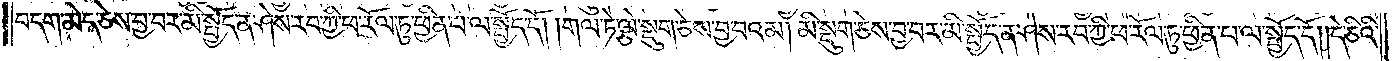བདག་མེད་ཅེས་བྱ་བར་མི་སྤྱོད་ན་ཤེས་རབ་ཀྱི་ཕ་རོལ་ཏུ་ཕྱིན་པ་ལ་སྤྱོད་དོ། །གལ་ཏེ་ལྕེ་སྡུག་ཅེས་བྱ་བའམ། མི་སྡུག་ཅེས་བྱ་བར་མི་སྤྱོད་ན་ཤེས་རབ་ཀྱི་ཕ་རོལ་ཏུ་ཕྱིན་པ་ལ་སྤྱོད་དོ། །དེ་ཅིའི་
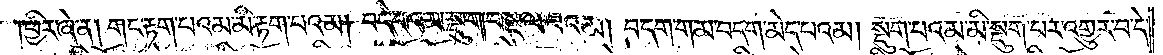ཕྱིར་ཞེ་ན། གང་རྟག་པའམ་མི་རྟག་པའམ། བདེ་བའམ་སྡུག་བསྔལ་བའམ། བདག་གམ་བདག་མེད་པའམ། སྡུག་པའམ་མི་སྡུག་པར་འགྱུར་བ་དེ་
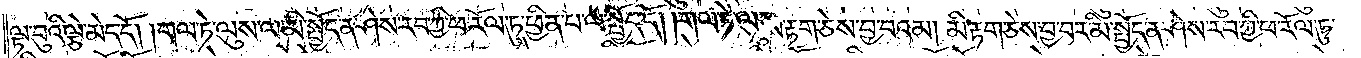ལྟ་བུའི་ལྕེ་མེད་དོ། །གལ་ཏེ་ལུས་ལ་མི་སྤྱོད་ན་ཤེས་རབ་ཀྱི་ཕ་རོལ་ཏུ་ཕྱིན་པ་ལ་སྤྱོད་དོ། །གལ་ཏེ་ལུས་རྟག་ཅེས་བྱ་བའམ། མི་རྟག་ཅེས་བྱ་བར་མི་སྤྱོད་ན་ཤེས་རབ་ཀྱི་ཕ་རོལ་ཏུ་
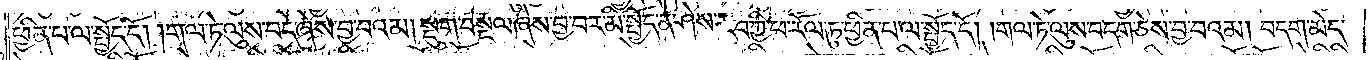ཕྱིན་པ་ལ་སྤྱོད་དོ། །གལ་ཏེ་ལུས་བདེ་ཞེས་བྱ་བའམ། སྡུག་བསྔལ་ཞེས་བྱ་བར་མི་སྤྱོད་ན་ཤེས་རབ་ཀྱི་ཕ་རོལ་ཏུ་ཕྱིན་པ་ལ་སྤྱོད་དོ། །གལ་ཏེ་ལུས་བདག་ཅེས་བྱ་བའམ། བདག་མེད་
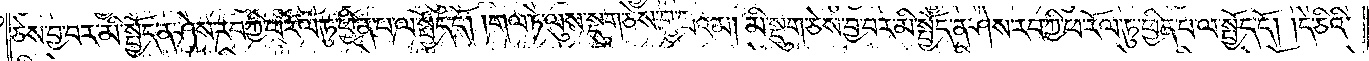ཅེས་བྱ་བར་མི་སྤྱོད་ན་ཤེས་རབ་ཀྱི་ཕ་རོལ་ཏུ་ཕྱིན་པ་ལ་སྤྱོད་དོ། །གལ་ཏེ་ལུས་སྡུག་ཅེས་བྱ་བའམ། མི་སྡུག་ཅེས་བྱ་བར་མི་སྤྱོད་ན་ཤེས་རབ་ཀྱི་ཕ་རོལ་ཏུ་ཕྱིན་པ་ལ་སྤྱོད་དོ། །དེ་ཅིའི་
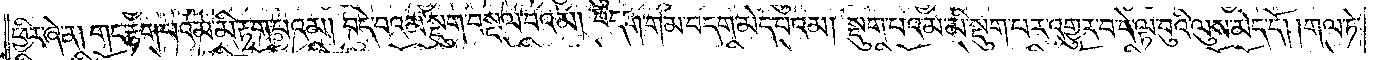ཕྱིར་ཞེ་ན། གང་རྟག་པའམ་མི་རྟག་པའམ། བདེ་བའམ་སྡུག་བསྔལ་བའམ། བདག་གམ་བདག་མེད་པའམ། སྡུག་པའམ་མི་སྡུག་པར་འགྱུར་བ་དེ་ལྟ་བུའི་ལུས་མེད་དོ། །གལ་ཏེ་
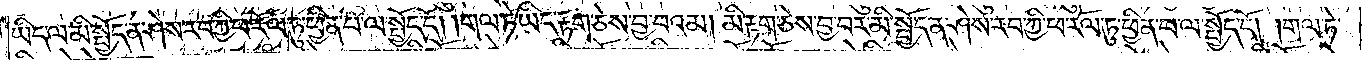ཡིད་ལ་མི་སྤྱོད་ན་ཤེས་རབ་ཀྱི་ཕ་རོལ་ཏུ་ཕྱིན་པ་ལ་སྤྱོད་དོ། །གལ་ཏེ་ཡིད་རྟག་ཅེས་བྱ་བའམ། མི་རྟག་ཅེས་བྱ་བར་མི་སྤྱོད་ན་ཤེས་རབ་ཀྱི་ཕ་རོལ་ཏུ་ཕྱིན་པ་ལ་སྤྱོད་དོ། །གལ་ཏེ་
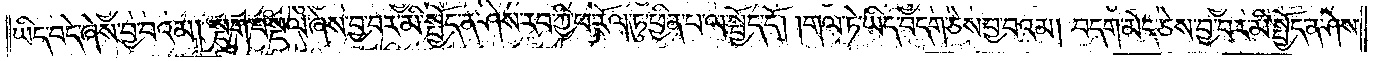ཡིད་བདེ་ཞེས་བྱ་བའམ། སྡུག་བསྔལ་ཞེས་བྱ་བར་མི་སྤྱོད་ན་ཤེས་རབ་ཀྱི་ཕ་རོལ་ཏུ་ཕྱིན་པ་ལ་སྤྱོད་དོ། །གལ་ཏེ་ཡིད་བདག་ཅེས་བྱ་བའམ། བདག་མེད་ཅེས་བྱ་བར་མི་སྤྱོད་ན་ཤེས་
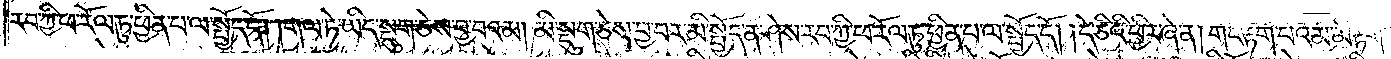རབ་ཀྱི་ཕ་རོལ་ཏུ་ཕྱིན་པ་ལ་སྤྱོད་དོ། །གལ་ཏེ་ཡིད་སྡུག་ཅེས་བྱ་བའམ། མི་སྡུག་ཅེས་བྱ་བར་མི་སྤྱོད་ན་ཤེས་རབ་ཀྱི་ཕ་རོལ་ཏུ་ཕྱིན་པ་ལ་སྤྱོད་དོ། །དེ་ཅིའི་ཕྱིར་ཞེ་ན། གང་རྟག་པའམ་མི་རྟག་
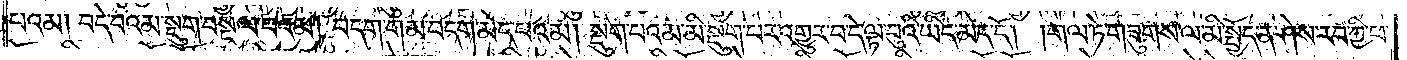པའམ། བདེ་བའམ་སྡུག་བསྔལ་བའམ། བདག་གམ་བདག་མེད་པའམ། སྡུག་པའམ་མི་སྡུག་པར་འགྱུར་བ་དེ་ལྟ་བུའི་ཡིད་མེད་དོ། །གལ་ཏེ་གཟུགས་ལ་མི་སྤྱོད་ན་ཤེས་རབ་ཀྱི་ཕ་
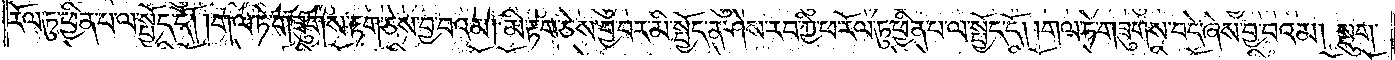རོལ་ཏུ་ཕྱིན་པ་ལ་སྤྱོད་དོ། །གལ་ཏེ་གཟུགས་རྟག་ཅེས་བྱ་བའམ། མི་རྟག་ཅེས་བྱ་བར་མི་སྤྱོད་ན་ཤེས་རབ་ཀྱི་ཕ་རོལ་ཏུ་ཕྱིན་པ་ལ་སྤྱོད་དོ། །གལ་ཏེ་གཟུགས་བདེ་ཞེས་བྱ་བའམ། སྡུག་
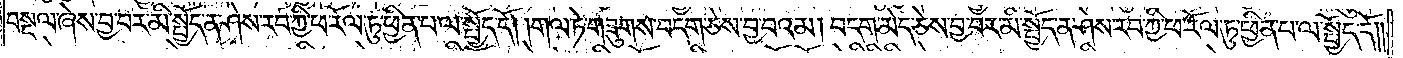བསྔལ་ཞེས་བྱ་བར་མི་སྤྱོད་ན་ཤེས་རབ་ཀྱི་ཕ་རོལ་ཏུ་ཕྱིན་པ་ལ་སྤྱོད་དོ། །གལ་ཏེ་གཟུགས་བདག་ཅེས་བྱ་བའམ། བདག་མེད་ཅེས་བྱ་བར་མི་སྤྱོད་ན་ཤེས་རབ་ཀྱི་ཕ་རོལ་ཏུ་ཕྱིན་པ་ལ་སྤྱོད་དོ། །
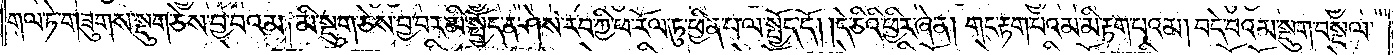གལ་ཏེ་གཟུགས་སྡུག་ཅེས་བྱ་བའམ། མི་སྡུག་ཅེས་བྱ་བར་མི་སྤྱོད་ན་ཤེས་རབ་ཀྱི་ཕ་རོལ་ཏུ་ཕྱིན་པ་ལ་སྤྱོད་དོ། །དེ་ཅིའི་ཕྱིར་ཞེ་ན། གང་རྟག་པའམ་མི་རྟག་པའམ། བདེ་བའམ་སྡུག་བསྔལ་
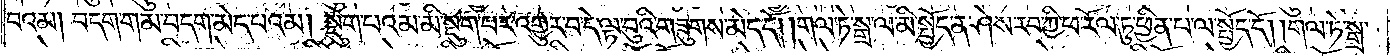བའམ། བདག་གམ་བདག་མེད་པའམ། སྡུག་པའམ་མི་སྡུག་པར་འགྱུར་བ་དེ་ལྟ་བུའི་གཟུགས་མེད་དོ། །གལ་ཏེ་སྒྲ་ལ་མི་སྤྱོད་ན་ཤེས་རབ་ཀྱི་ཕ་རོལ་ཏུ་ཕྱིན་པ་ལ་སྤྱོད་དོ། །གལ་ཏེ་སྒྲ་
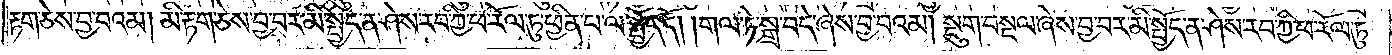རྟག་ཅེས་བྱ་བའམ། མི་རྟག་ཅེས་བྱ་བར་མི་སྤྱོད་ན་ཤེས་རབ་ཀྱི་ཕ་རོལ་ཏུ་ཕྱིན་པ་ལ་སྤྱོད་དོ། །གལ་ཏེ་སྒྲ་བདེ་ཞེས་བྱ་བའམ། སྡུག་བསྔལ་ཞེས་བྱ་བར་མི་སྤྱོད་ན་ཤེས་རབ་ཀྱི་ཕ་རོལ་ཏུ་
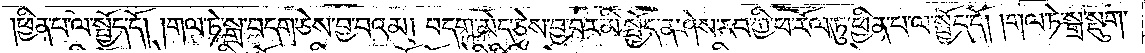ཕྱིན་པ་ལ་སྤྱོད་དོ། །གལ་ཏེ་སྒྲ་བདག་ཅེས་བྱ་བའམ། བདག་མེད་ཅེས་བྱ་བར་མི་སྤྱོད་ན་ཤེས་རབ་ཀྱི་ཕ་རོལ་ཏུ་ཕྱིན་པ་ལ་སྤྱོད་དོ། །གལ་ཏེ་སྒྲ་སྡུག་
